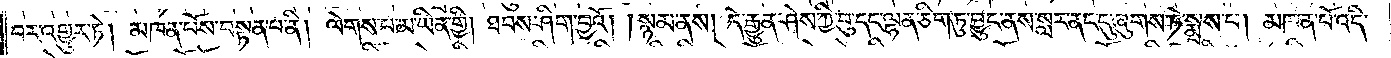བར་འགྱུར་ཏེ། མཁན་པོས་བསྟན་པ་ནི། ལེགས་པ་མ་ཡིན་གྱི། ཐབས་ཤིག་བྱའོ། །སྙམ་ནས། དེ་རྒྱུན་ཤེས་ཀྱི་བུ་དང་ལྷན་ཅིག་ཏུ་བྱུང་ནས་སླར་ནང་དུ་ཞུགས་ཏེ་སྨྲས་པ། མཁན་པོ་འདི་
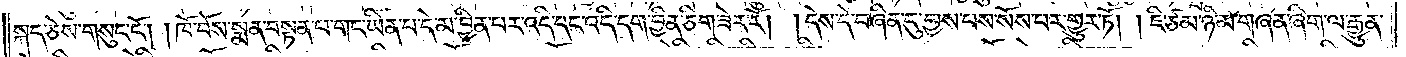སྐད་ཅེས་གསུང་ངོ༌། །ཁོ་བོས་སྨན་བསྟན་པ་གང་ཡིན་པ་དེ་མ་བྱིན་པར་འདི་དང་འདི་དག་བྱིན་ཅིག་ཟེར་རོ། །དེས་དེ་བཞིན་དུ་བྱས་པས་སོས་པར་གྱུར་ཏོ། །ཇི་ཙམ་ཉི་མ་གཞན་ཞིག་ལ་རྒྱུན་
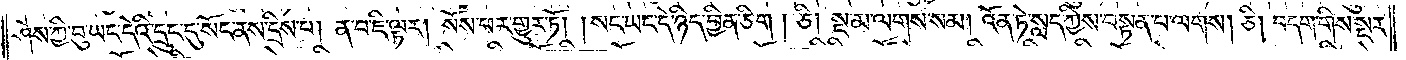ཤེས་ཀྱི་བུ་ཡང་དེའི་དྲུང་དུ་སོང་ནས་དྲིས་པ། ན་བ་ཇི་ལྟར། སོས་པར་གྱུར་ཏོ། །སང་ཡང་དེ་ཉིད་བྱིན་ཅིག །ཅི། སྔ་མ་ལགས་སམ། འོན་ཏེ་སླད་ཀྱིས་བསྟན་པ་ལགས། ཅི། བདག་གིས་སྔར་
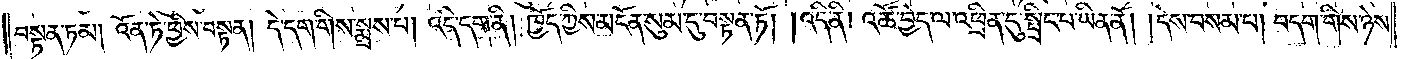བསྟན་ཏམ། འོན་ཏེ་ཕྱིས་བསྟན། དེ་དག་གིས་སྨྲས་པ། འདི་དག་ནི། ཁྱོད་ཀྱིས་མངོན་སུམ་དུ་བསྟན་ཏོ། །འདི་ནི། འཚོ་བྱེད་ལ་འཕྲིན་དུ་སྤྲིང་པ་ཡིན་ནོ། །དེས་བསམ་པ། བདག་གིས་ཉེས་
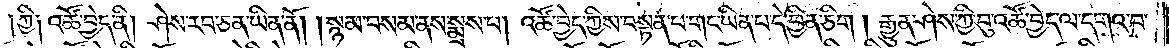།ཀྱི། འཚོ་བྱེད་ནི། ཤེས་རབ་ཅན་ཡིན་ནོ། །སྙམ་བསམ་ནས་སྨྲས་པ། འཚོ་བྱེད་ཀྱིས་བསྟན་པ་གང་ཡིན་པ་དེ་བྱིན་ཅིག །རྒྱུན་ཤེས་ཀྱི་བུ་འཚོ་བྱེད་ལ་དགའ་བ་
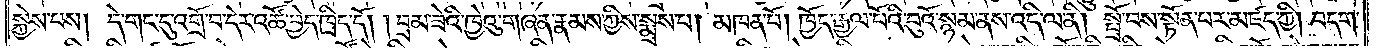སྐྱེས་པས། དེ་གང་དུ་འགྲོ་བ་དེར་འཚོ་བྱེད་ཁྲིད་དོ། །བྲམ་ཟེའི་ཁྱེའུ་གཞན་རྣམས་ཀྱིས་སྨྲས་པ། མཁན་པོ། ཁྱོད་རྒྱལ་པོའི་བུའོ་སྙམ་ནས་འདི་ལ་ནི། སྤྲོ་བས་སྟོན་པར་མཛད་ཀྱི། བདག་
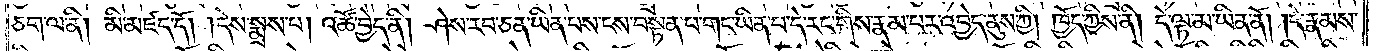ཅག་ལ་ནི། མི་མཛད་དོ། །དེས་སྨྲས་པ། འཚོ་བྱེད་ནི། ཤེས་རབ་ཅན་ཡིན་པས་ངས་བསྟན་པ་གང་ཡིན་པ་དེ་རང་གིས་རྣམ་པར་འབྱེད་ནུས་ཀྱི། ཁྱོད་ཀྱིས་ནི། དེ་ལྟ་མ་ཡིན་ནོ། །དེ་རྣམས་
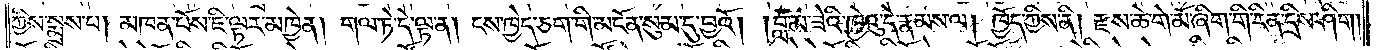ཀྱིས་སྨྲས་པ། མཁན་པོས་ཇི་ལྟར་མཁྱེན། གལ་ཏེ་དེ་ལྟ་ན། ངས་ཁྱེད་ཅག་གི་མངོན་སུམ་དུ་བྱའོ། །བླ་མ་ཟེའི་ཁྱེའུ་དེ་རྣམས་ལ། ཁྱོད་ཀྱིས་ནི། རྫས་ཆེ་གེ་མོ་ཞིག་གི་རིན་དྲིས་ཤིག །
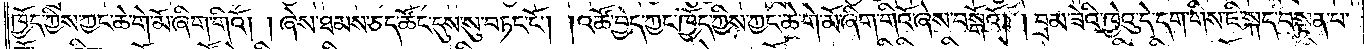ཁྱོད་ཀྱིས་ཀྱང་ཆེ་གེ་མོ་ཞིག་གིའོ། །ཞེས་ཐམས་ཅད་ཚོང་དུས་སུ་བཏང་ངོ༌། །འཚོ་བྱེད་ཀྱང་ཁྱོད་ཀྱིས་ཀྱང་ཆེ་གེ་མོ་ཞིག་གིའོ་ཞེས་བསྒོའོ། །བྲམ་ཟེའི་ཁྱེའུ་དེ་དག་གིས་ཇི་སྐད་བསྟན་པ་
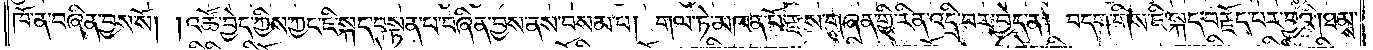ཁོ་ན་བཞིན་བྱས་སོ། །འཚོ་བྱེད་ཀྱིས་ཀྱང་ཇི་སྐད་བསྟན་པ་བཞིན་བྱས་ནས་བསམ་པ། གལ་ཏེ་མཁན་པོ་རྫས་གཞན་གྱི་རིན་འདྲི་བར་བྱེད་ན། བདག་གིས་ཇི་སྐད་བརྗོད་པར་བྱའི། ཐམས་
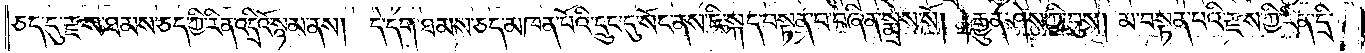ཅད་དུ་རྫས་ཐམས་ཅད་ཀྱི་རིན་འདྲིའོ་སྙམ་ནས། དེ་དག་ཐམས་ཅད་མཁན་པོའི་དྲུང་དུ་སོང་ནས་ཇི་སྐད་བསྟན་པ་བཞིན་སྨྲས་སོ། །རྒྱུན་ཤེས་ཀྱི་བུས། མ་བསྟན་པའི་རྫས་ཀྱི་རིན་དྲི་
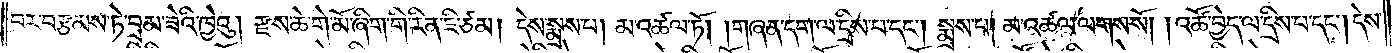བར་བརྩམས་ཏེ་བྲམ་ཟེའི་ཁྱེའུ། རྫས་ཆེ་གེ་མོ་ཞིག་གི་རིན་ཇི་ཙམ། དེས་སྨྲས་པ། མ་འཚལ་ཏོ། །གཞན་དག་ལ་དྲིས་པ་དང༌། སྨྲས་པ། མ་འཚལ་ལགས་སོ། །འཚོ་བྱེད་ལ་དྲིས་པ་དང༌། དེས་
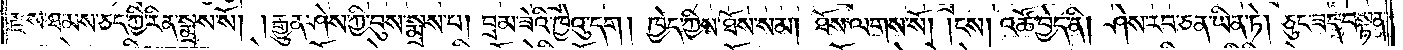རྫས་ཐམས་ཅད་ཀྱི་རིན་སྨྲས་སོ། །རྒྱུན་ཤེས་ཀྱི་བུས་སྨྲས་པ། བྲམ་ཟེའི་ཁྱེའུ་དག །ཁྱེད་ཀྱིས་ཐོས་སམ། ཐོས་ལགས་སོ། །ངས། འཚོ་བྱེད་ནི། ཤེས་རབ་ཅན་ཡིན་ཏེ། ཅུང་ཟད་བསྟན་
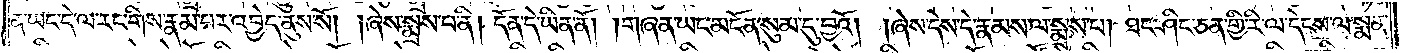ན་ཡང་དེ་ལ་རང་གིས་རྣམ་པར་འབྱེད་ནུས་སོ། །ཞེས་སྨྲས་པ་ནི། དོན་དེ་ཡིན་ནོ། །གཞན་ཡང་མངོན་སུམ་དུ་བྱའོ། །ཞེས་དེས་དེ་རྣམས་ལ་སྨྲས་པ། ཐང་ཤིང་ཅན་གྱི་རི་ལ་དེངས་ལ་སྨན་
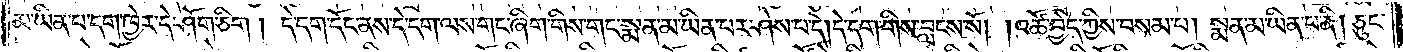མ་ཡིན་པ་དག་ཁྱེར་དེ་ཤོག་ཅིག །དེ་དག་དོང་ནས་དེ་དག་ལས་གང་ཞིག་གིས་གང་སྨན་མ་ཡིན་པར་ཤེས་པ་དེ། དེ་དག་གིས་བླངས་སོ། །འཚོ་བྱེད་ཀྱིས་བསམ་པ། སྨན་མ་ཡིན་པ་ནི། ཅུང་
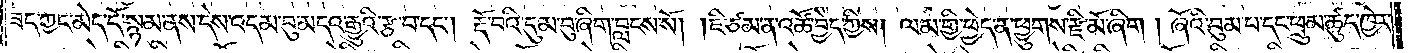ཟད་ཀྱང་མེད་དོ་སྙམ་ནས་དེས་འདམ་བུ་མདའ་རྒྱུའི་རྩ་བ་དང༌། རྡོ་བའི་དུམ་བུ་ཞིག་བླངས་སོ། །ཇི་ཙམ་ན་འཚོ་བྱེད་ཀྱིས། ལམ་གྱི་ཕྱེད་ན་ཕྱུགས་རྫི་མོ་ཞིག །ཞོའི་བུམ་པ་དང་ཕྲུམ་ཚུད་ཁྱེར་
